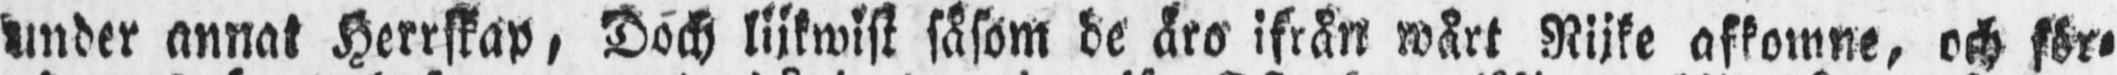under annat Herrskap, Doch lijkwist såsom de äro ifrån wårt Rijke afkomne, och för-
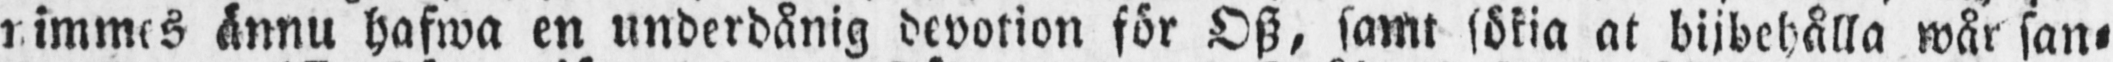nimmes ännu hafwa en underdånig devotion för Osz, samt sökia at bijbehålla wår san-
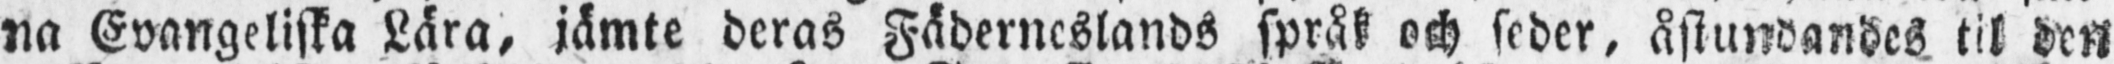na Evangeliska Lära, jämte deras Fäderneslands språk och seder, åstundandes til den
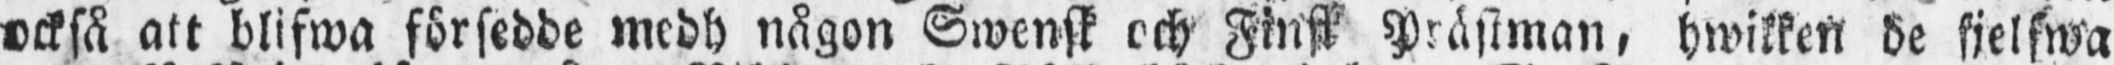också att blifwa försedde medh någon Swensk och Finsk Prästman, hwilken de sjelfwa
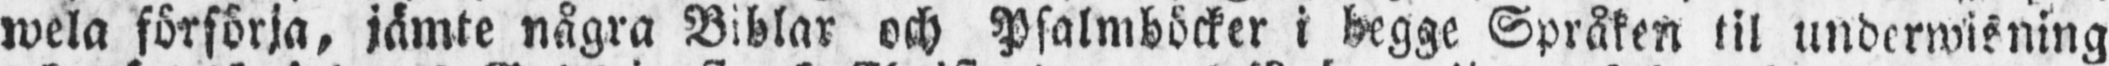wela försörja, jämte några Biblar och Psalmböcker i begge Språken til underwisning
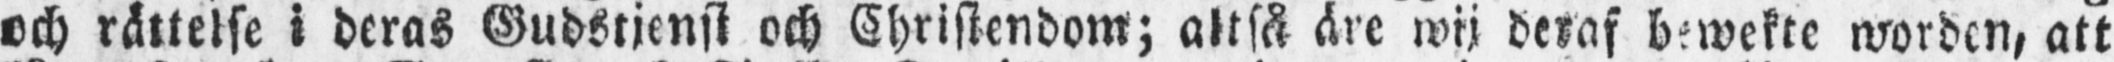och rättelse i deras Gudstjenst och Christendom; altså äre wij deraf bewekte worden, att
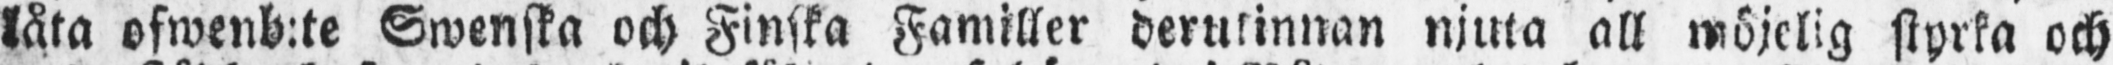låta ofwenb:te Swenska och Finska Familler derutinnan njuta all möjelig styrka och
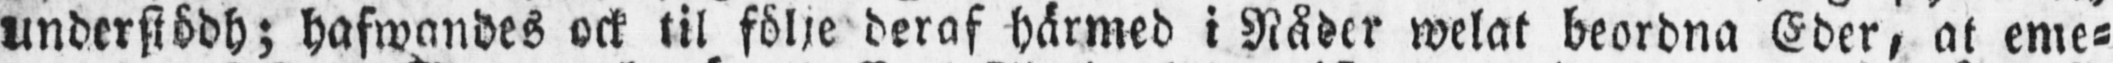understödh; hafwandes ock til följe deraf härmed i Nåder welat beordna Eder, at eme-
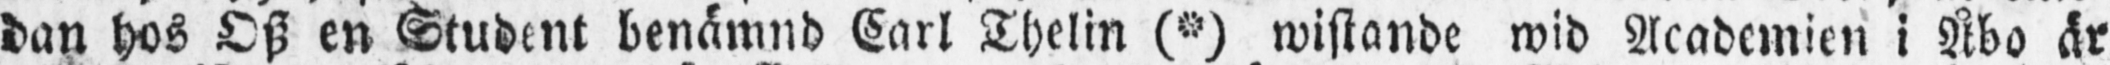dan hos Osz en Student benämnd Carl Thelin (*) wistande wid Academien i Åbo är
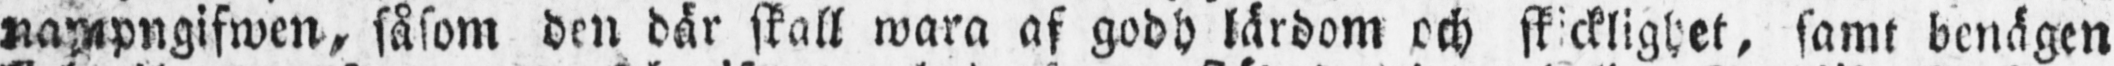nampngifwen, såsom den där skall wara af godh lärdom och skicklighet, samt benägen
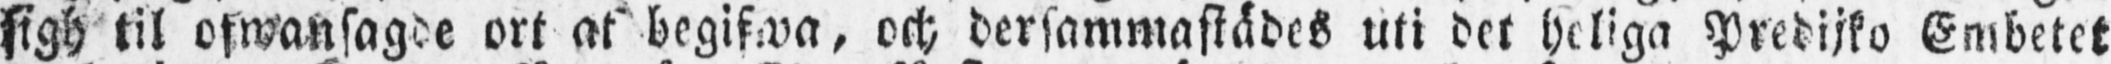sigh til ofwansagde ort at begifwa, och dersammastädes uti det heliga Predijko Embetet
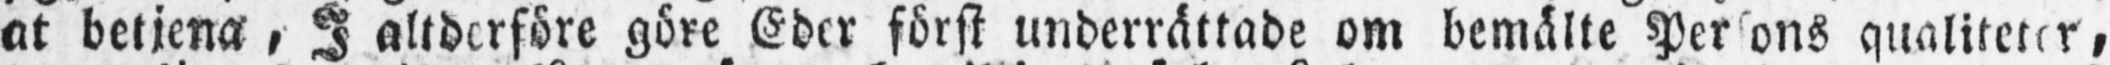at betjena, I altderföre göre Eder först underrättade om bemälte Persons qualiteter,
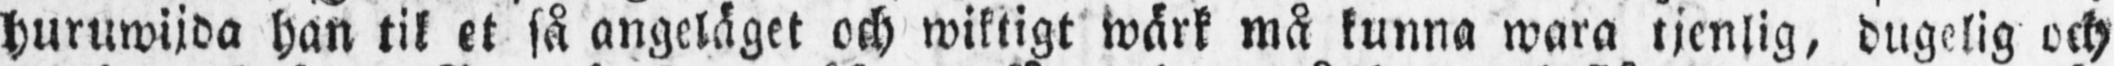huruwijda han til et så angeläget och wiktigt wärk må kunna wara tjenlig, dugelig och
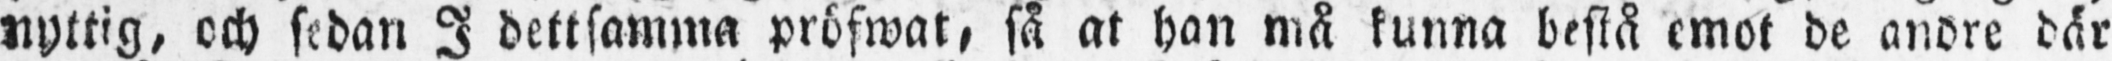nyttig, och sedan I dettsamma pröfwat, så at han må kunna bestå emot de andre där
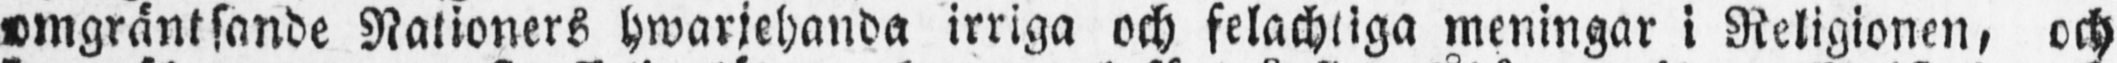omgräntsande Nationers hwarjehanda irriga och felachtiga meningar i Religionen, och
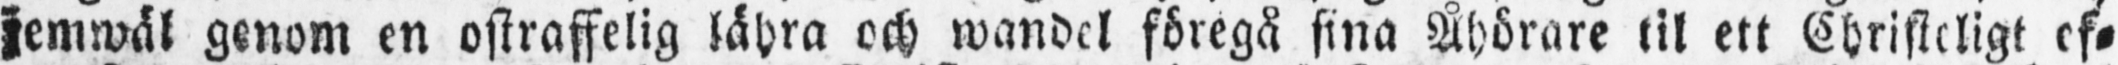jemwäl genom en ostraffelig lähra och wandel föregå sina Åhörare til ett Christeligt ef-
